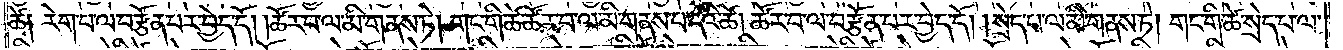ཚེ༑ རེག་པ་ལ་བརྩོན་པར་བྱེད་དོ། །ཚོར་བ་ལ་མི་གནས་ཏེ། གང་གི་ཚེ་ཚོར་བ་ལ་མི་གནས་པ་དེའི་ཚེ། ཚོར་བ་ལ་བརྩོན་པར་བྱེད་དོ། །སྲེད་པ་ལ་མི་གནས་ཏེ། གང་གི་ཚེ་སྲེད་པ་ལ་
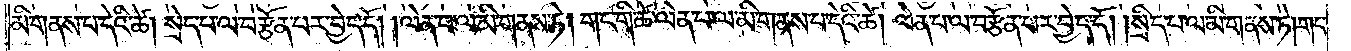མི་གནས་པ་དེའི་ཚེ། སྲེད་པ་ལ་བརྩོན་པར་བྱེད་དོ། །ལེན་པ་ལ་མི་གནས་ཏེ། གང་གི་ཚེ་ལེན་པ་ལ་མི་གནས་པ་དེའི་ཚེ། ལེན་པ་ལ་བརྩོན་པར་བྱེད་དོ། །སྲིད་པ་ལ་མི་གནས་ཏེ། གང་
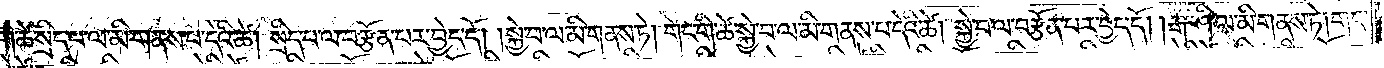གི་ཚེ་སྲིད་པ་ལ་མི་གནས་པ་དེའི་ཚེ། སྲིད་པ་ལ་བརྩོན་པར་བྱེད་དོ། །སྐྱེ་བ་ལ་མི་གནས་ཏེ། གང་གི་ཚེ་སྐྱེ་བ་ལ་མི་གནས་པ་དེའི་ཚེ། སྐྱེ་བ་ལ་བརྩོན་པར་བྱེད་དོ། །རྒ་ཤི་ལ་མི་གནས་ཏེ། གང་
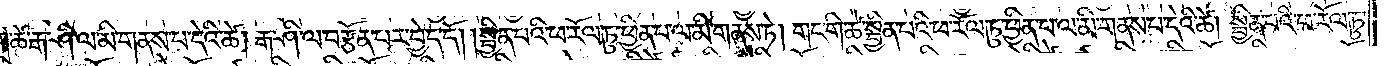གི་ཚེ་རྒ་ཤི་ལ་མི་གནས་པ་དེའི་ཚེ། རྒ་ཤི་ལ་བརྩོན་པར་བྱེད་དོ། །སྦྱིན་པའི་ཕ་རོལ་ཏུ་ཕྱིན་པ་ལ་མི་གནས་ཏེ། གང་གི་ཚེ་སྦྱིན་པའི་ཕ་རོལ་ཏུ་ཕྱིན་པ་ལ་མི་གནས་པ་དེའི་ཚེ། སྦྱིན་པའི་ཕ་རོལ་ཏུ་
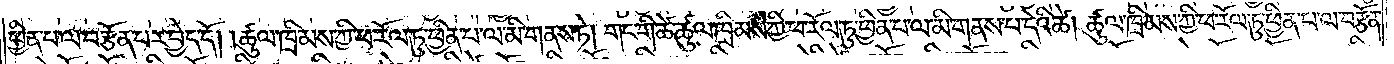ཕྱིན་པ་ལ་བརྩོན་པར་བྱེད་དོ། །ཚུལ་ཁྲིམས་ཀྱི་ཕ་རོལ་ཏུ་ཕྱིན་པ་ལ་མི་གནས་ཏེ། གང་གི་ཚེ་ཚུལ་ཁྲིམས་ཀྱི་ཕ་རོལ་ཏུ་ཕྱིན་པ་ལ་མི་གནས་པ་དེའི་ཚེ། ཚུལ་ཁྲིམས་ཀྱི་ཕ་རོལ་ཏུ་ཕྱིན་པ་ལ་བརྩོན་
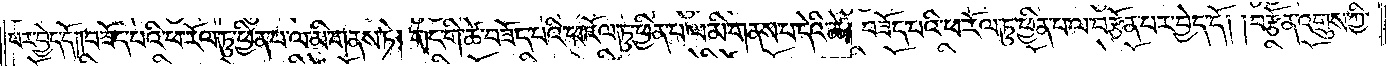པར་བྱེད་དོ། །བཟོད་པའི་ཕ་རོལ་ཏུ་ཕྱིན་པ་ལ་མི་གནས་ཏེ། གང་གི་ཚེ་བཟོད་པའི་ཕ་རོལ་ཏུ་ཕྱིན་པ་ལ་མི་གནས་པ་དེའི་ཚེ། བཟོད་པའི་ཕ་རོལ་ཏུ་ཕྱིན་པ་ལ་བརྩོན་པར་བྱེད་དོ། །བརྩོན་འགྲུས་ཀྱི་
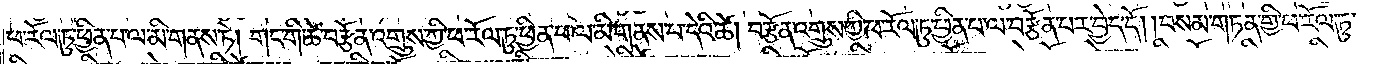ཕ་རོལ་ཏུ་ཕྱིན་པ་ལ་མི་གནས་ཏེ། གང་གི་ཚེ་བརྩོན་འགྲུས་ཀྱི་ཕ་རོལ་ཏུ་ཕྱིན་པ་ལ་མི་གནས་པ་དེའི་ཚེ། བརྩོན་འགྲུས་ཀྱི་ཕ་རོལ་ཏུ་ཕྱིན་པ་ལ་བརྩོན་པར་བྱེད་དོ། །བསམ་གཏན་གྱི་ཕ་རོལ་ཏུ་
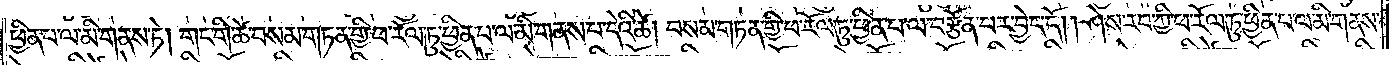ཕྱིན་པ་ལ་མི་གནས་ཏེ། གང་གི་ཚེ་བསམ་གཏན་གྱི་ཕ་རོལ་ཏུ་ཕྱིན་པ་ལ་མི་གནས་པ་དེའི་ཚེ། བསམ་གཏན་གྱི་ཕ་རོལ་ཏུ་ཕྱིན་པ་ལ་བརྩོན་པར་བྱེད་དོ། །ཤེས་རབ་ཀྱི་ཕ་རོལ་ཏུ་ཕྱིན་པ་ལ་མི་གནས་
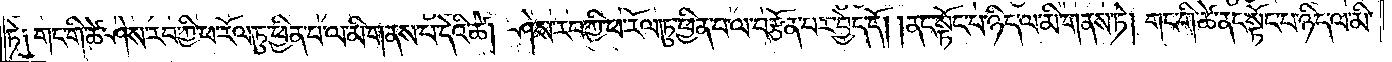ཏེ༑ གང་གི་ཚེ་ཤེས་རབ་ཀྱི་ཕ་རོལ་ཏུ་ཕྱིན་པ་ལ་མི་གནས་པ་དེའི་ཚེ། ཤེས་རབ་ཀྱི་ཕ་རོལ་ཏུ་ཕྱིན་པ་ལ་བརྩོན་པར་བྱེད་དོ། །ནང་སྟོང་པ་ཉིད་ལ་མི་གནས་ཏེ། གང་གི་ཚེ་ནང་སྟོང་པ་ཉིད་ལ་མི་
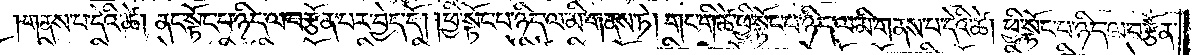གནས་པ་དེའི་ཚེ། ནང་སྟོང་པ་ཉིད་ལ་བརྩོན་པར་བྱེད་དོ། །ཕྱི་སྟོང་པ་ཉིད་ལ་མི་གནས་ཏེ། གང་གི་ཚེ་ཕྱི་སྟོང་པ་ཉིད་ལ་མི་གནས་པ་དེའི་ཚེ། ཕྱི་སྟོང་པ་ཉིད་ལ་བརྩོན་
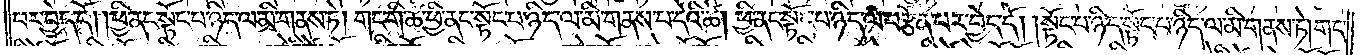པར་བྱེད་དོ། །ཕྱི་ནང་སྟོང་པ་ཉིད་ལ་མི་གནས་ཏེ། གང་གི་ཚེ་ཕྱི་ནང་སྟོང་པ་ཉིད་ལ་མི་གནས་པ་དེའི་ཚེ། ཕྱི་ནང་སྟོང་པ་ཉིད་ལ་བརྩོན་པར་བྱེད་དོ། །སྟོང་པ་ཉིད་སྟོང་པ་ཉིད་ལ་མི་གནས་ཏེ། གང་
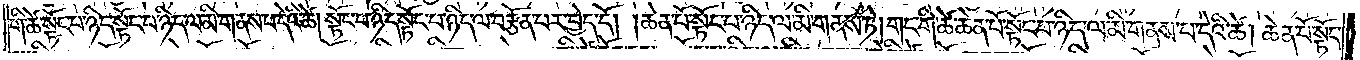གི་ཚེ་སྟོང་པ་ཉིད་སྟོང་པ་ཉིད་ལ་མི་གནས་པ་དེའི་ཚེ། སྟོང་པ་ཉིད་སྟོང་པ་ཉིད་ལ་བརྩོན་པར་བྱེད་དོ། །ཆེན་པོ་སྟོང་པ་ཉིད་ལ་མི་གནས་ཏེ། གང་གི་ཚེ་ཆེན་པོ་སྟོང་པ་ཉིད་ལ་མི་གནས་པ་དེའི་ཚེ། ཆེན་པོ་སྟོང་
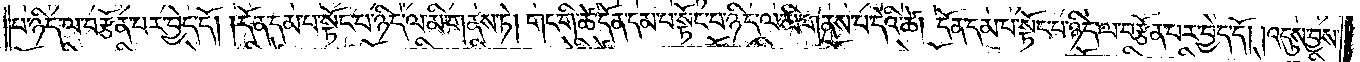པ་ཉིད་ལ་བརྩོན་པར་བྱེད་དོ། །དོན་དམ་པ་སྟོང་པ་ཉིད་ལ་མི་གནས་ཏེ། གང་གི་ཚེ་དོན་དམ་པ་སྟོང་པ་ཉིད་ལ་མི་གནས་པ་དེའི་ཚེ། དོན་དམ་པ་སྟོང་པ་ཉིད་ལ་བརྩོན་པར་བྱེད་དོ། །འདུས་བྱས་
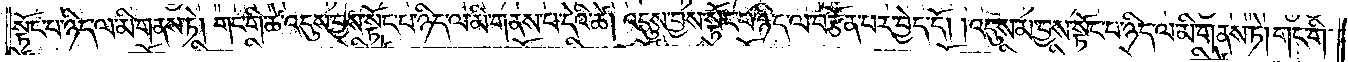སྟོང་པ་ཉིད་ལ་མི་གནས་ཏེ། གང་གི་ཚེ་འདུས་བྱས་སྟོང་པ་ཉིད་ལ་མི་གནས་པ་དེའི་ཚེ། འདུས་བྱས་སྟོང་པ་ཉིད་ལ་བརྩོན་པར་བྱེད་དོ། །འདུས་མ་བྱས་སྟོང་པ་ཉིད་ལ་མི་གནས་ཏེ། གང་གི་
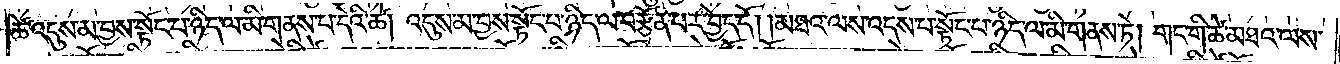ཚེ་འདུས་མ་བྱས་སྟོང་པ་ཉིད་ལ་མི་གནས་པ་དེའི་ཚེ། འདུས་མ་བྱས་སྟོང་པ་ཉིད་ལ་བརྩོན་པར་བྱེད་དོ། །མཐའ་ལས་འདས་པ་སྟོང་པ་ཉིད་ལ་མི་གནས་ཏེ། གང་གི་ཚེ་མཐའ་ལས་
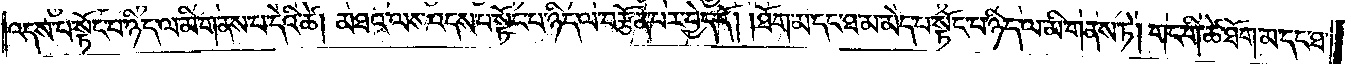འདས་པ་སྟོང་པ་ཉིད་ལ་མི་གནས་པ་དེའི་ཚེ། མཐའ་ལས་འདས་པ་སྟོང་པ་ཉིད་ལ་བརྩོན་པར་བྱེད་དོ། །ཐོག་མ་དང་ཐ་མ་མེད་པ་སྟོང་པ་ཉིད་ལ་མི་གནས་ཏེ། གང་གི་ཚེ་ཐོག་མ་དང་ཐ་
